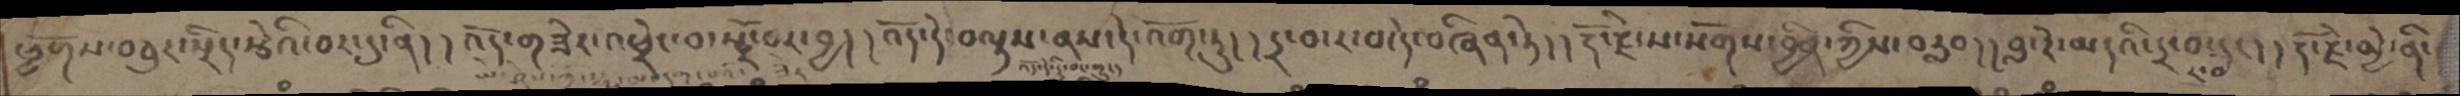ཕྱོགས་བཅུར་སྲིད་ེརྩེའི་བར་དུ་ནི། །འོད་གཟེར་འཕྲེང་བ་སྤྲོ་བར་བྱ། །འོད་དེ་བལྟས་ནས་དེ་འོག་ཏུ། །དྲ་བ་ར་བ་དེ་བཞིན་ཏེ། །རྡོ་རྗེ་ས་སོགས་བྱིན་ཀྱིས་བརླབ། །བླ་རེ་མདའི་དྲ་བ་དང། །རྡོ་རྗེ་མྱེ་ནི་
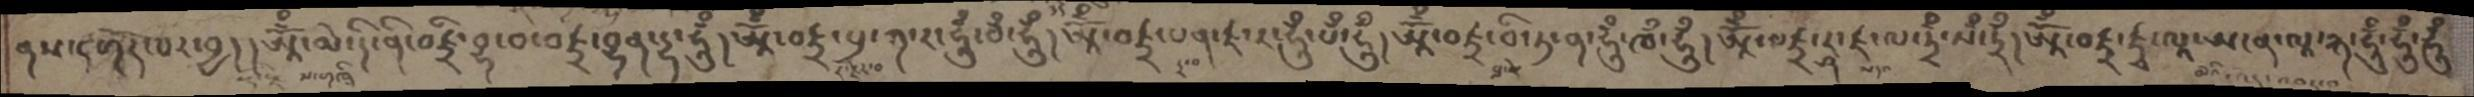ནས་དགོད་པར་བྱ། །ཨཱོཾ་མེ་དི་ནི་བཛྲི་བྷ་བ་བཛྲ་བྷན་དྷ་ཧཱུྃ། ཨཱོྃ་བཛྲ་པྲ་ཀ་ར་ཧཱུྃ་བྃ་ཧཱུྃ། ཨཱོྃ་བཛྲ་པན་ཛ་ར་ཧཱུྃ་པྃ་ཧཱུྃ། ཨཱོྃ་བཛྲ་བི་ཏ་ན་ཧཱུྃ་ཁྃ་ཧཱུྃ། ཨཱོྃ་བཛྲ་རྴ་ཛ་ལ་ཏྲྃ་ལྃ་ཏྲྃ། ཨཱོྃ་བཛྲ་ཛྭ་ལཱ་ཨ་ན་ལཱ་རྐ་ཧཱུྃ་ཧཱུྃ་ཧཱུྃ
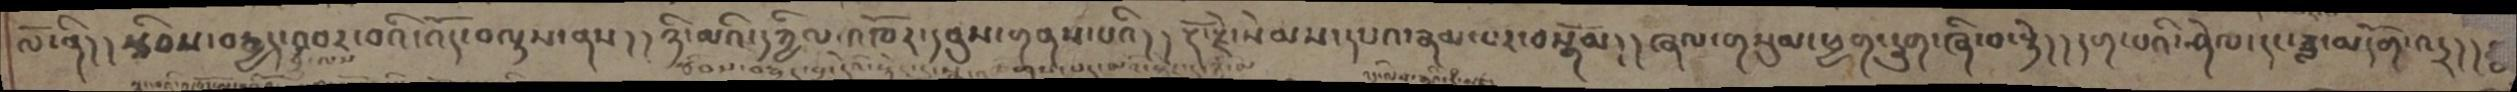ལོ་ནི། །རྩིབས་བརྒྱད་འབར་བའི་འོད་བལྟས་ནས། །ཉི་མའི་དཀྱིལ་འཁོར་དབུས་གནས་པའི། །རྡོ་རྗེ་སེམས་དཔའ་རྣམ་པར་བསྒོམ། །ཞལ་གསུམ་ཕྱག་དྲུག་ཞི་བ་སྟེ། །དག་པའི་ཤེལ་དང་ཟླ་མདོག་འདྲ། །
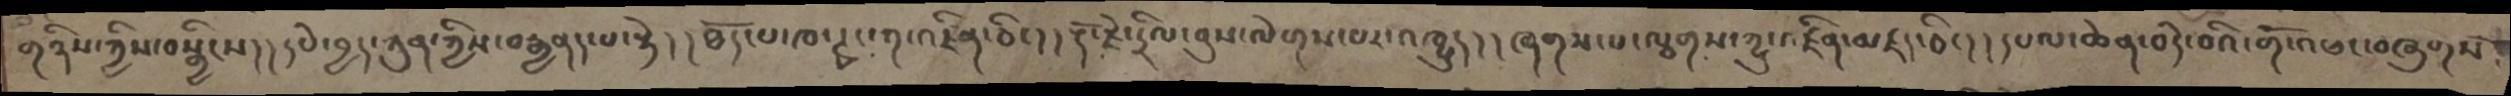གཉིས་ཀྱིས་བསྒྱིངས།  །དཔེ་བྱད་ཀུན་ཀྱིས་བརྒྱནད་པ་སྟེ།  །ཐོད་པ་ཁ་ཊྭང་ག་འཛིན་ཅིང། །རྡོ་རྗེ་དྲིལ་བུས་ལེགས་པར་འཁྱུད། །ཞགས་པ་ལྕགས་ཀྱུ་འཛིན་མཛད་ཅིང། །དཔལ་ཆེན་བདེ་བའི་གོ་འཕང་བཞུགས
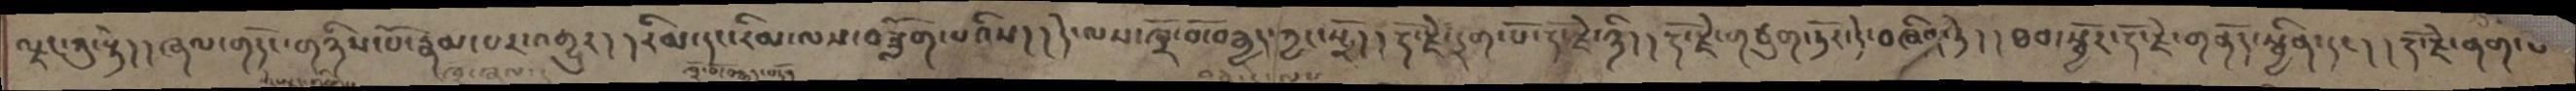ལྗང་ཀུ་སྟེ། །ཞལ་གདོང་གཉིས་པོ་རྣམ་པར་འགྱུར། །རིམ་དང་རིམ་ལས་བཟློག་པའིས། །དེ་ལས་ཁྲོ་བོ་བརྒྱད་ཀྱང་སྤྲོ། །རྡོ་རྗེ་དྲག་པོ་རྡེ་རྗེ་ཉིད། རྡོ་རྗེ་གཙུག་ཏོར་དེ་བཞིན་ཏེ། །ཐབ་སྦྱོར་རྡོ་རྗེ་གནོད་སྦྱིན་དང། །རྡོ་རྗེ་ནག་པ
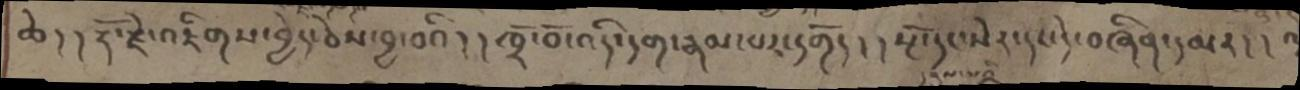ཆེ། །རྡོ་རྗེ་འཇིགས་བྱེད་ཅེས་བྱ་བའི། །ཁྲོ་བོ་འདི་དག་རྣམ་པར་དགོད། །སྔོ་དང་སེར་དང་དེ་བཞིན་དམར། །
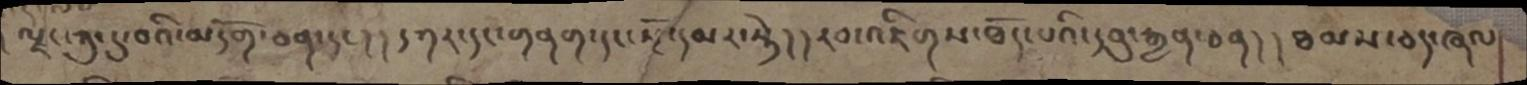ལྗང་ཀུ་དུ་བའི་མདོག་ཅན་དང། །དཀར་དང་གནག་དང་སྔོ་དམར་སྟེ། །རབ་འཇིགས་ཐོད་པའི་དབུ་རྒྱན་ཅན། །ཐམས་ཅད་ཞལ
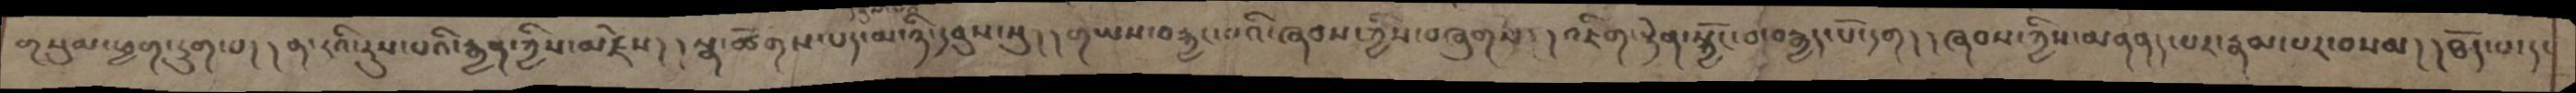གསུམ་ཕྱག་དྲུག་པ། །ན་ཏའི་རུས་པའི་རྒྱན་ཀྱིས་མཛེས། །སྣ་ཚོགས་པད་མ་ཉི་དབུས་སུ། །གཡས་བརྐྱང་པའི་ཞབས་ཀྱིས་བཞུགས། །འཇིག་རྟེན་སྐྱོང་བ་བརྒྱད་པོ་དག། །ཞབས་ཀྱིས་མནནད་པར་རྣམ་པར་བསམ། །ཐོད་པ་དང
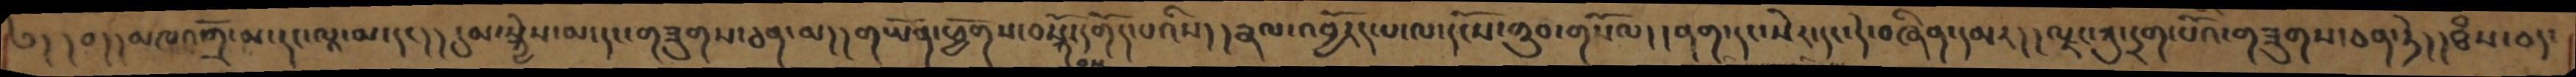༄། །བ།།མཁའགྲོ་མ་དང་ལཱ་མ་དང། །དུམ་སྐྱེས་མ་དང་གཟུགས་ཅན་མ། །གཡོན་ཕྱོགས་བསྐོ་བས་དགོད་པའིས། །རྣལ་འབྱོརད་པ་ལ་དངོས་གྲུབ་གསོལ། །ནག་དང་སེར་དང་དེ་བཞིན་དམར། །ལྗང་ཀུ་དྲག་པོའི་གཟུགས་ཅན་ཏེ། །ཐཾས་ཅད་
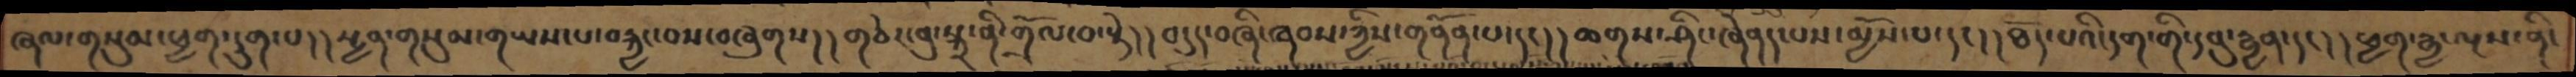ཞལ་གསུམ་ཕྱག་དྲུག་པ། །སྤྱན་གསུམ་གཡས་པ་བརྐྱང་བས་བཞུགས། །གཅེར་བུ་སྐྲ་ནི་གྲོལ་བ་སྟེ། །བདུད་བཞི་ཞབས་ཀྱིས་གནོན་པ་དང། །ཆགས་ཤིང་ཞེནད་པས་མྱོས་པ་དང། །ཐོད་པའི་དག་གི་དབུ་རྒྱན་དང། །ཕྱག་རྒྱ་ལྔས་ནི་
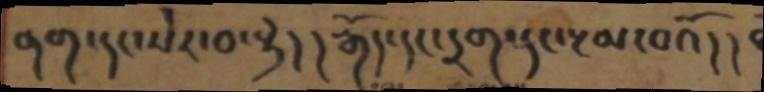ནག་དང་སེར་བ་སྟེ། །རྒོད་དང་དྲག་དང་རྔམ་བའོ། །
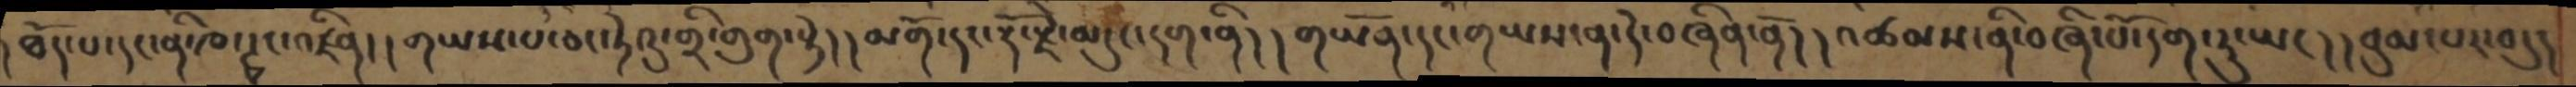།ཐོད་པ་དང་ནི་ཁ་ཊྭང་འཛིན། ། གཡས་པ་ཅང་ཏེའུ་གྲི་གུག་སྟེ། །མགོ་དང་རྡོ་རྗེ་མདུང་དག་ནི། ། གཡོན་དང་གཡས་ན་དེ་བཞིན་ནོ། །འཚམས་ནི་བཞི་པོ་དག་ཏུ་ཡང།། བུམ་པར་བདུད
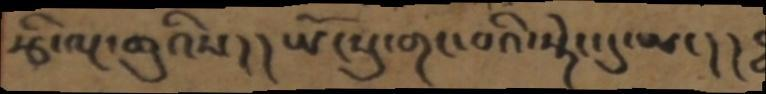རྩི་ལྔ་ཆུའིས། །ཡོངསུ་གང་པའི་སྟེང་དུ་ཡང། །ཿ
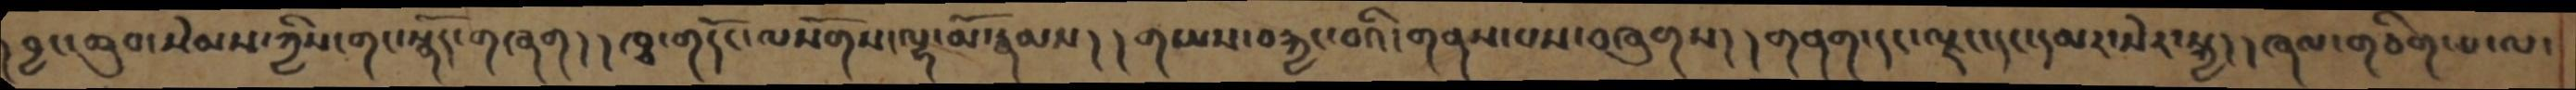། བྱང་ཆུབ་སེམས་ཀྱིས་གང་སྣོད་གཞག། །ཁྭ་གདོང་ལསོགས་ལྷ་མོ་རྣམས། །གཡས་བརྐྱང་བའི་གནས་པས་བཞུགས། །གནག་དང་ལྗང་དང་དམར་སེར་སྐྱ། །ཞལ་གཅིག་པ་ལ་
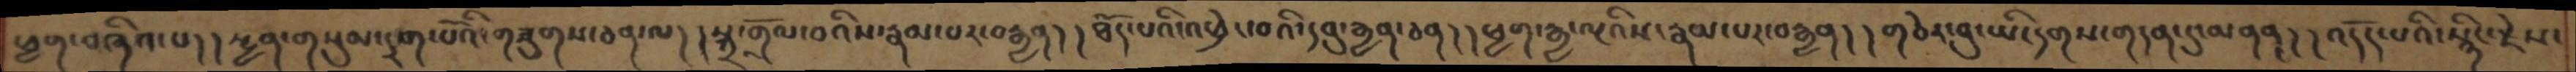ཕྱག་བཞིའ་པ། །སྤྱན་གསུམ་དྲག་པོའི་གཟུགས་ཅན་ལ། །སྐྲ་གྲོལ་བའིས་རྣམ་པར་བརྒྱན། །ཐོད་པའི་འཕྲེང་བའི་དབུ་རྒྱན་ཅན། །ཕྱག་རྒྱ་ལྔའིས་རྣམ་པར་བརྒྱན། །གཅེར་བུ་ཡི་དགས་གདན་དུ་མནན། །འདོད་པའི་སྙིང་རྗེས་
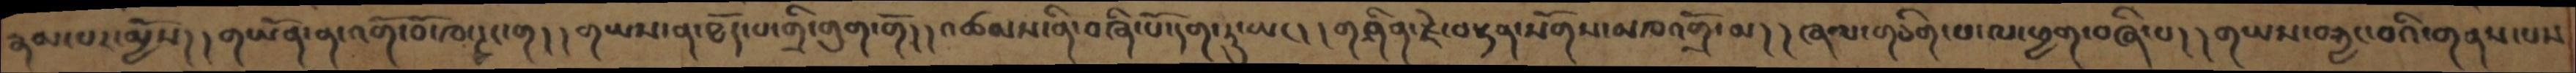རྣམ་པར་མྱོས། །གཡོན་ན་འགོ་བོ་ཁ་ཊྭང་ག། །གཡས་ན་ཐོད་པ་གྲི་གུག་གོ། །འཚམས་ནི་བཞི་པོ་དག་ཏུ་ཡང། །གཤིན་རྗེ་བསྟན་སོགས་མཁའགྲོ་མ། །ཞལ་གཅིག་པ་ལ་ཕྱག་བཞི་པ་། །གཡས་བརྐྱང་བའི་གནས་པས་
